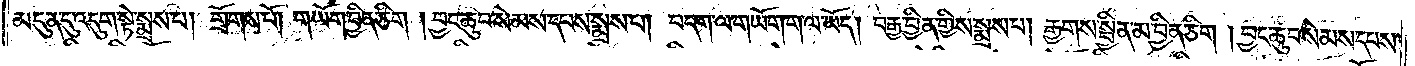མདུན་དུ་འདུག་སྟེ་སྨྲས་པ། གྲོགས་པོ། གཡོག་བྱིན་ཅིག །བྱང་ཆུབ་སེམས་དཔས་སྨྲས་པ། བདག་ལ་གཡོག་ག་ལ་ཡོད། བརྒྱ་བྱིན་གྱིས་སྨྲས་པ། རྒྱགས་སྦྱིན་མ་བྱིན་ཅིག །བྱང་ཆུབ་སེམས་དཔས་
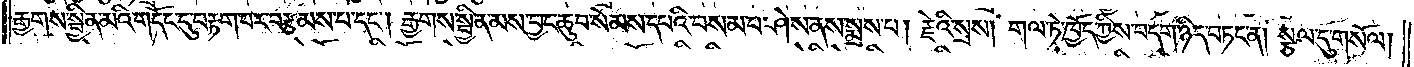རྒྱགས་སྦྱིན་མའི་གདོང་དུ་བརྟག་པར་བརྩམས་པ་དང༌། རྒྱགས་སྦྱིན་མས་བྱང་ཆུབ་སེམས་དཔའི་བསམ་པ་ཤེས་ནས་སྨྲས་པ། རྗེའི་སྲས། གལ་ཏེ་ཁྱོད་ཀྱིས་བདག་ཉིད་བཏང་ན། སྩལ་དུ་གསོལ།
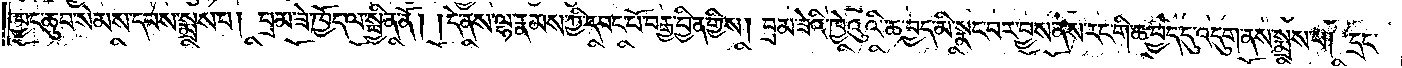བྱང་ཆུབ་སེམས་དཔས་སྨྲས་པ། བྲམ་ཟེ་ཁྱོད་ལ་སྦྱིན་ནོ། །དེ་ནས་ལྷ་རྣམས་ཀྱི་དབང་པོ་བརྒྱ་བྱིན་གྱིས། བྲམ་ཟེའི་ཁྱེའུའི་ཆ་བྱད་མི་སྣང་བར་བྱས་ནས་རང་གི་ཆ་བྱད་དུ་འདུག་ནས་སྨྲས་པ། དྲང་
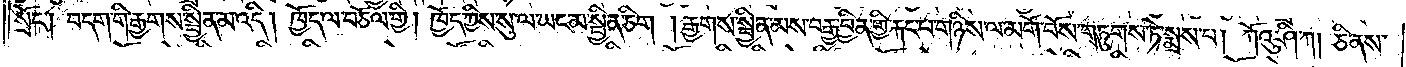སྲོང༌། བདག་གི་རྒྱགས་སྦྱིན་མ་འདི། ཁྱོད་ལ་བཅོལ་གྱི། ཁྱོད་ཀྱིས་སུ་ལ་ཡང་མ་སྦྱིན་ཅིག །རྒྱགས་སྦྱིན་མས་བརྒྱ་བྱིན་གྱི་རྐང་པ་གཉིས་ལ་མགོ་བོས་གཏུགས་ཏེ་སྨྲས་པ། ཀོའུ་ཤི་ཀ། ཅི་ནས་
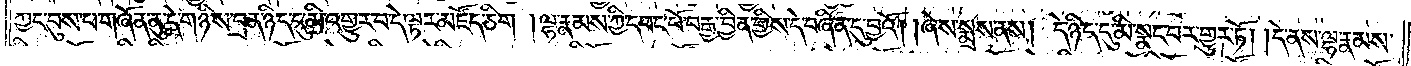ཀྱང་བུས་པ་གཞོན་ནུ་དེ་གཉིས་བྲན་ཉིད་དུ་མི་འགྱུར་བ་དེ་ལྟར་མཛོད་ཅིག །ལྷ་རྣམས་ཀྱི་དབང་པོ་བརྒྱ་བྱིན་གྱིས་དེ་བཞིན་དུ་བྱའོ། །ཞེས་སྨྲས་ནས། དེ་ཉིད་དུ་མི་སྣང་བར་གྱུར་ཏོ། །དེ་ནས་ལྷ་རྣམས་
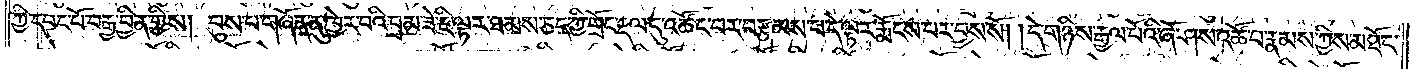ཀྱི་དབང་པོ་བརྒྱ་བྱིན་གྱིས། བུས་པ་གཞོན་ནུ་ཁྱེར་བའི་བྲམ་ཟེ་ཇི་ལྟར་ཐམས་ཅད་ཀྱི་གྲོང་རྡལ་དུ་འཚོང་བར་བརྩམས་པ་དེ་ལྟར་རྨོངས་པར་བྱས་སོ། །དེ་གཉིས་རྒྱལ་པོའི་ཞོ་ཤས་འཚོ་བ་རྣམས་ཀྱིས་མཐོང་
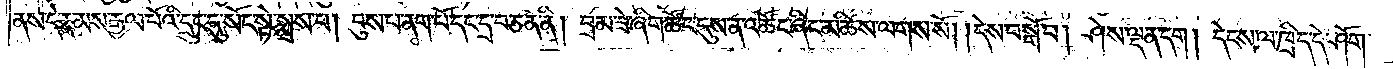ནས་དེ་རྣམས་རྒྱལ་པོའི་དྲུང་དུ་སོང་སྟེ་སྨྲས་པ། བུས་པ་ནག་པོ་དང་དྲ་བ་ཅན་ནི། བྲམ་ཟེ་ཞིག་ཚོང་དུས་ན་འཚོང་ཞིང་མཆིས་ལགས་སོ། །དེས་བསྒོ་བ། ཤེས་ལྡན་དག །དེངས་ལ་ཁྲིད་དེ་ཤོག་
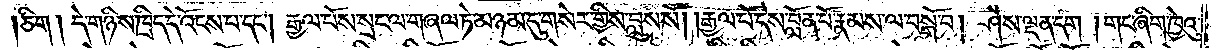ཅིག །དེ་གཉིས་ཁྲིད་དེ་འོངས་པ་དང༌། རྒྱལ་པོས་སྲང་ལ་གཞལ་ཏེ་མཉམ་དུ་གསེར་གྱིས་བླུས་སོ། །རྒྱལ་པོ་དེས་བློན་པོ་རྣམས་ལ་བསྒོ་བ། ཤེས་ལྡན་དག །གང་ཞིག་ཁྱེའུ་
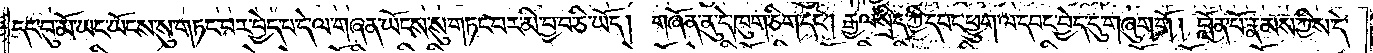དང་བུ་མོ་ཡངས་སུ་གཏང་བར་བྱེད་པ་དེ་ལ་གཞན་ཡོངས་སུ་གཏང་བར་མི་བྱ་བ་ཅི་ཡོད། གཞོན་ནུ་དེ་ཁུག་ཅིག་དང༌། རྒྱལ་སྲིད་ཀྱི་དབང་ཕྱུག་ལ་དབང་བྱེད་དུ་གཞུག་གོ། བློན་པོ་རྣམས་ཀྱིས་དེ་
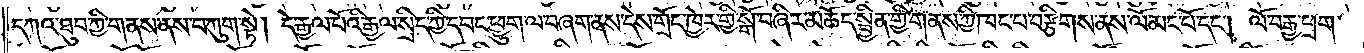དཀའ་ཐུབ་ཀྱི་གནས་ནས་བཀུག་སྟེ། དེ་རྒྱལ་པོའི་རྒྱལ་སྲིད་ཀྱི་དབང་ཕྱུག་ལ་བཞག་ནས་དེས་གྲོང་ཁྱེར་གྱི་སྒོ་བཞིར་མཆོད་སྦྱིན་གྱི་གནས་ཀྱི་ཁང་པ་བརྩིགས་ནས་ལོ་མང་པོ་དང༌། ལོ་བརྒྱ་ཕྲག་
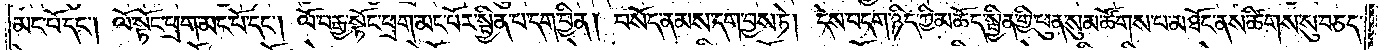མང་པོ་དང༌། ལོ་སྟོང་ཕྲག་མང་པོ་དང༌། ལོ་བརྒྱ་སྟོང་ཕྲག་མང་པོར་སྦྱིན་པ་དག་བྱིན། བསོད་ནམས་དག་བྱས་ཏེ། དེས་བདག་ཉིད་ཀྱི་མཆོད་སྦྱིན་གྱི་ཕུན་སུམ་ཚོགས་པ་མཐོང་ནས་ཚིགས་སུ་བཅད་
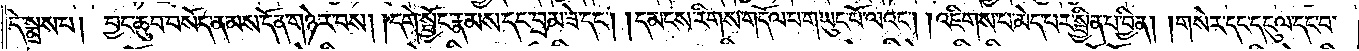དེ་སྨྲས་པ། བྱང་ཆུབ་བསོད་ནམས་དོན་གཉེར་བས། །དགེ་སྦྱོང་རྣམས་དང་བྲམ་ཟེ་དང༌། །དམངས་རིགས་གདོལ་པ་གཡུང་པོ་ལའང༌། །འཇིགས་པ་མེད་པར་སྦྱིན་པ་བྱིན། །གསེར་དང་དངུལ་དང་བ་
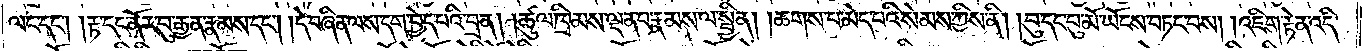ལང་དང༌། །རྟ་དང་ནོར་བུ་རྒྱན་རྣམས་དང༌། །དེ་བཞིན་ལས་དག་བྱེད་པའི་བྲན། །ཚུལ་ཁྲིམས་ལྡན་པ་རྣམས་ལ་སྦྱིན། །ཆགས་པ་མེད་པའི་སེམས་ཀྱིས་ནི། །བུ་དང་བུ་མོ་ཡོངས་བཏང་བས། །འཇིག་རྟེན་འདི་
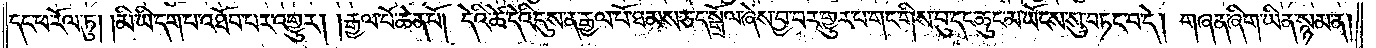དང་ཕ་རོལ་ཏུ། །མི་ཡི་དག་པ་འཐོབ་པར་འགྱུར། །རྒྱལ་པོ་ཆེན་པོ། དེའི་ཚེ་དེའི་དུས་ན་རྒྱལ་པོ་ཐམས་ཅད་སྒྲོལ་ཞེས་བྱ་བར་གྱུར་པ་གང་གིས་བུ་དང་ཆུང་མ་ཡོངས་སུ་བཏང་བ་དེ། གཞན་ཞིག་ཡིན་སྙམ་ན།
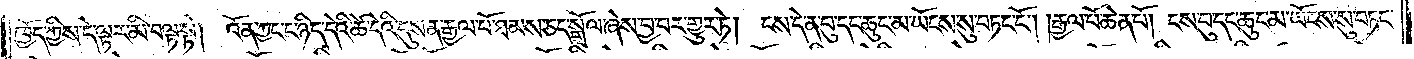ཁྱོད་ཀྱིས་དེ་ལྟར་མི་བལྟ་སྟེ། འོན་ཀྱང་ང་ཉིད་དེའི་ཚེ་དེའི་དུས་ན་རྒྱལ་པོ་ཐམས་ཅད་སྒྲོལ་ཞེས་བྱ་བར་གྱུར་ཏེ། ངས་དེ་ན་བུ་དང་ཆུང་མ་ཡོངས་སུ་བཏང་ངོ༌། །རྒྱལ་པོ་ཆེན་པོ། །ངས་བུ་དང་ཆུང་མ་ཡོངས་སུ་བཏང་
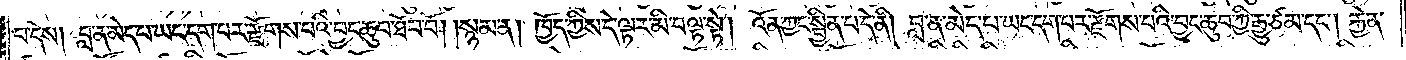བ་དེས། བླ་ན་མེད་པ་ཡང་དག་པར་རྫོགས་པའི་བྱང་ཆུབ་ཐོབ་བོ། །སྙམ་ན། ཁྱོད་ཀྱིས་དེ་ལྟར་མི་བལྟ་སྟེ། འོན་ཀྱང་སྦྱིན་པ་དེ་ནི། བླ་ན་མེད་པ་ཡང་དག་པར་རྫོགས་པའི་བྱང་ཆུབ་ཀྱི་རྒྱུ་ཙམ་དང༌། རྐྱེན་
